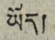ཡོད།
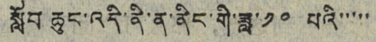སློབ ཆུང་འདི་ནི་ན་ནིང་གི་ཟླ་ ༡༠ པའི་་་་་
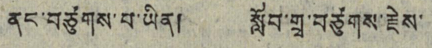ནང་བཙུགས་པ་ཡིན། སློབ་གྲྭ་བཙུགས་རྗེས་
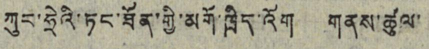ཀུང་ཧྲེའི་ཏང་ཐོན་གྱི་མགོ་ཁྲིད་འོག གནས་ཚུལ་
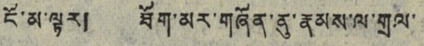ངོ་མ་ལྟར། ཐོག་མར་གཞོན་ནུ་རྣམས་ལ་གྲལ་་
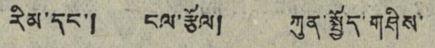རིམ་དང་། ངལ་རྩོལ། ཀུན་སྤྱོད་གཤིས་་
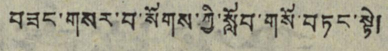བཟང་གསར་བ་སོགས་ཀྱི་སློབ་གསོ་བཏང་སྟེ།
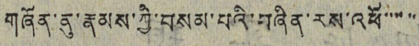གཞོན་ནུ་རྣམས་ཀྱི་བསམ་པའི་བཞིན་རས་འཕོ་་་་་་
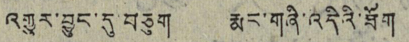འགྱུར་བྱུང་དུ་བཅུག རྨང་གཞི་འདིའི་ཐོག
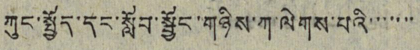ཀུང་སྤྱོད་དང་སློབ་སྦྱོང་གཉིས་ཀ་ལེགས་པའི་་་་་་་
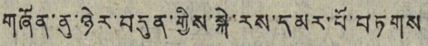གཞོན་ནུ་ཉེར་བདུན་གྱིས་སྐེ་རས་དམར་པོ་བཏགས
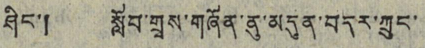ཤིང་། སློབ་གྲྭས་གཞོན་ནུ་མདུན་བདར་ཀྲུང་
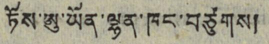ཏོས་ཨུ་ཡོན་ལྷན་ཁང་བཙུགས།
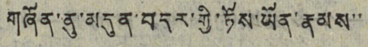གཞོན་ནུ་མདུན་བདར་གྱི་ཏོས་ཡོན་རྣམས་་
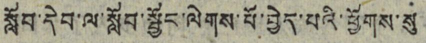སློབ་དེབ་ལ་སློབ་སྦྱོང་ལེགས་པོ་བྱེད་པའི་ཕྱོགས་སུ
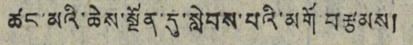ཚང་མའི་ཆེས་སྔོན་དུ་སླེབས་པའི་མགོ་བརྩམས།
